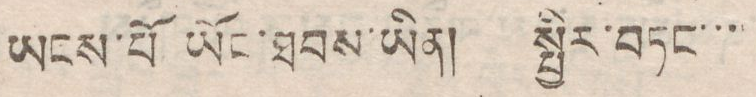ཡངས་པོ ཡོང་ཐབས་ཡིན། སྤྱིར་བཏང་་་
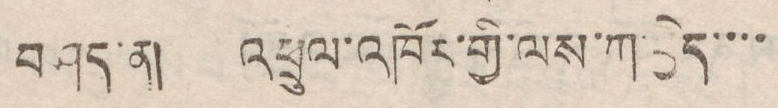བཤད་ན། འཕྲུལ་འཁོར་གྱི་ལས་ཀ་བྱེད་་་་
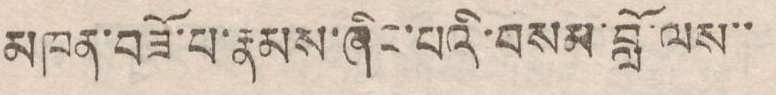མཁན་བཟོ་པ་རྣམས་ཞིང་པའི་བསམ་བློ་ལས་་
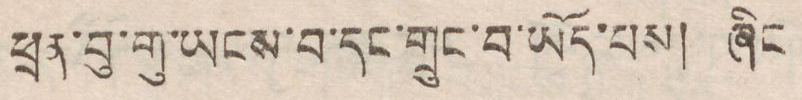ཕྲན་བུ་གུ་ཡངས་བ་དང་གྲུང་བ་ཡོད་པས། ཞིང
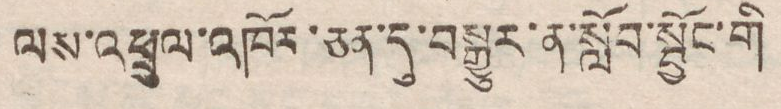ལས་འཕྲུལ་འཁོར་ཅན་དུ་བསྒྱུར་ན་སློབ་སྦྱོང་གི
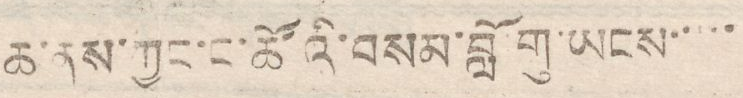ཆ་ནས་ཀྱང་ང་ཚོའི་བསམ་བློ་གུ་ཡངས་་་་་
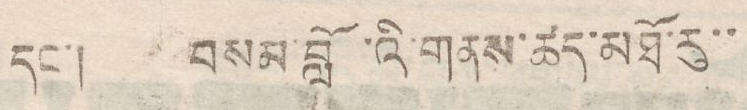དང་། བསམ་བློ ་འི་གནས་ཚད་མཐོ་རུ་་
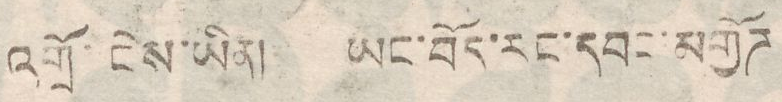འགྲོ་ངེས་ཡིན། ཡང་བོད་རང་དབང་མགྱོཌ
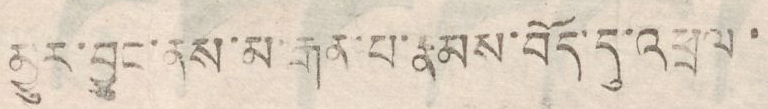མྱུར་བྱུང་ནས་མ་རྒར་པ་རྣམས་བོད་དུ་འཕྲལ་
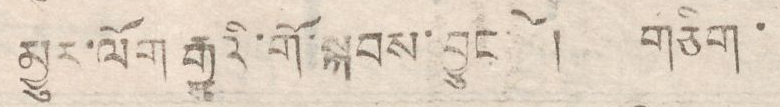མྱུར་ལོག་རྒྱུའི་གོ་སྐབས་བྱུང་ཚེ། གཅིག་
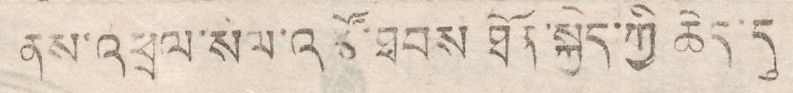ནས་འཕྲལ་སིལ་འཚོ་ཐབས་ཐོན་སྐྱེད་ཀྱི ཆེད་དུ
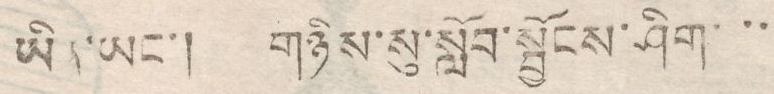ཡིན་ཡང་། གཉིས་སུ་སློབ་སྦྱོངས་ཤིག་་་་
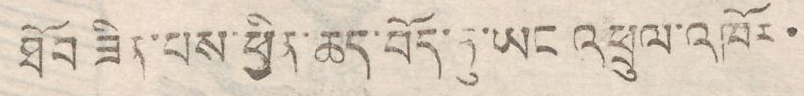ཐོབ ཟིན་པས་ཕྱིན་ཆད་བོད་ཏུ་ཡང འཕྲུལ་འཁོར་
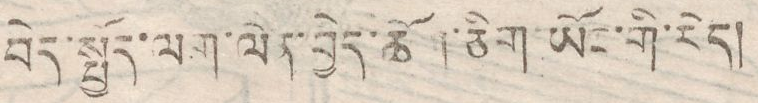བདེ་སྤྱོད་ལག་ལེན་བྱེད་ཆོག་ཅིག་ཡོང་གི་རེད།
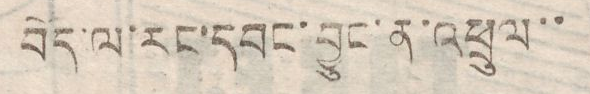བོད་ལ་རང་དབང་བྱུང་ན་འཕྲུལ་་
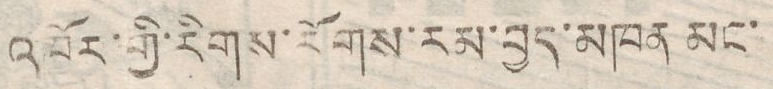འཁོར་གྱི་རིགས་རོགས་རམ་བྱེད་མཁན མང་
